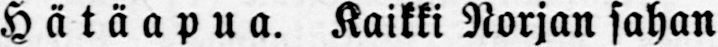Hätäapua. Kaikki Norjan sahan
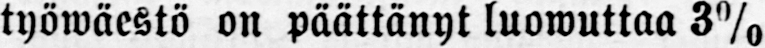työwäestö on päättänyt luowuttaa 3%
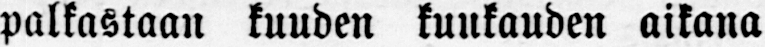palkastaan kuuden kuukauden aikana
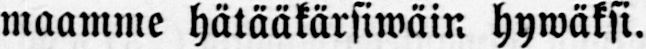maamme hätääkärsiwäin hywäksi.
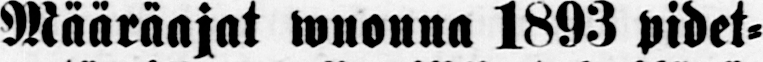Määräajat wuonna 1893 pidet-
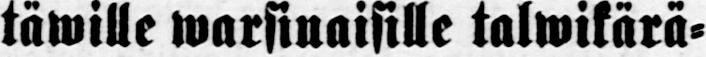täwille warsinaisille talwikärä-
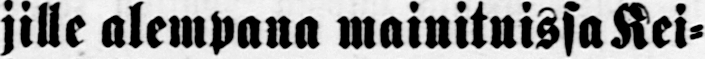jille alempana mainituissa Kei-
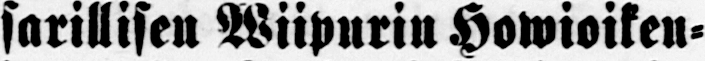sarillisen Wiipurin Howioiken-
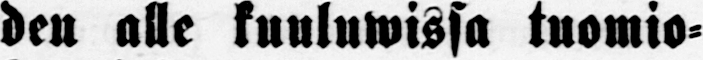den alle kuuluwissa tuomio-
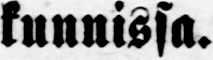kunnissa.
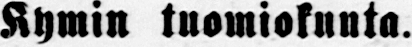Kymin tuomiokunta.
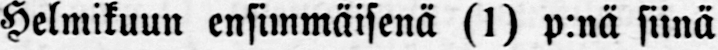Helmikuun ensimmäisenä (1) p:nä siinä
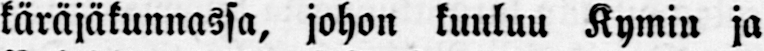käräjäkunnassa, johon kuuluu Kymin ja
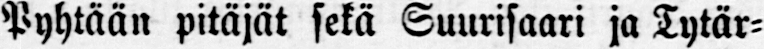Pyhtään pitäjät sekä Suurisaari ja Tytär-
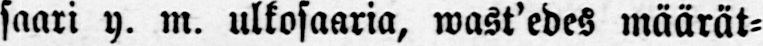saari y. m. ulkosaaria, wast’edes määrät-
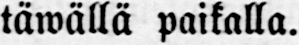täwällä paikalla.
